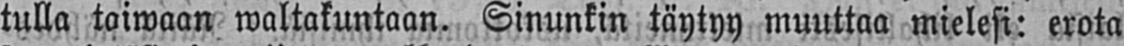tulla taiwaan waltakuntaan. Sinunkin täytyy muuttaa mielesi: erota
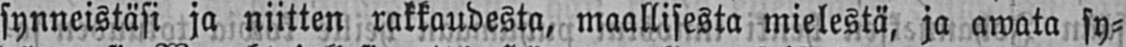synneistäsi ja niitten rakkaudesta, maallisesta mielestä, ja awata sy-
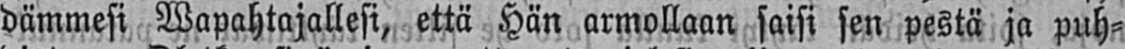dämmesi Wapahtajallesi, että Hän armollaan saisi sen pestä ja puh-
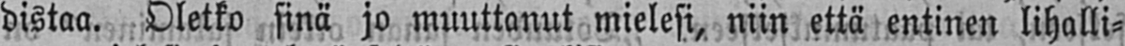distaa. Oletko sinä jo muuttanut mielesi, niin että entinen lihalli-
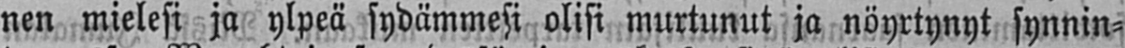nen mielesi ja ylpeä sydämmesi olisi murtunut ja nöyrtynyt synnin-
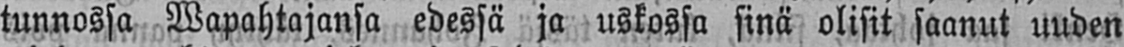tunnossa Wapahtajansa edessä ja uskossa sinä olisit saanut uuden
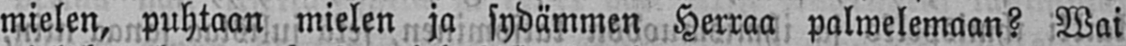mielen, puhtaan mielen ja sydämmen Herraa palwelemaan? Wai
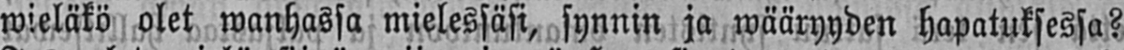weläkö olet wanhassa mielessäsi, synnin ja wääryyden hapatuksessa?
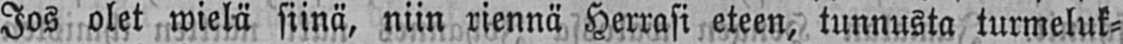Jos olet wielä siinä, niin riennä Herrasi eteen, tunnusta turmeluk-
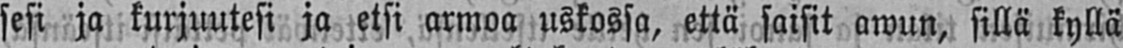sesi ja kurjuutesi ja etsi armoa uskossa, että saisit awun, sillä kyllä
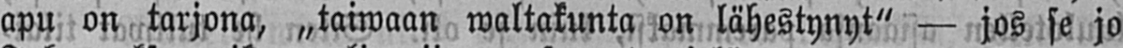apu on tarjona, „taiwaan waltakunta on lähestynyt" — jos se jo
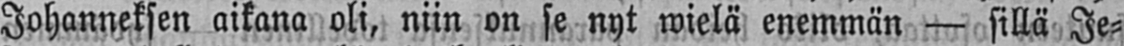Johanneksen aikana oli, niin on se nyt wielä enemmän — sillä Je-
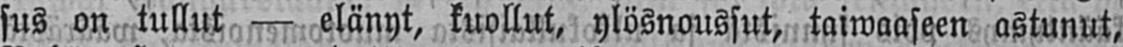sus on tullut — elänyt, kuollut, ylösnoussut, taiwaaseen astunut,
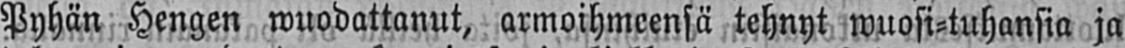Pyhän Hengen wuodattanut, armoihmeensä tehnyt wuosi-tuhansia ja
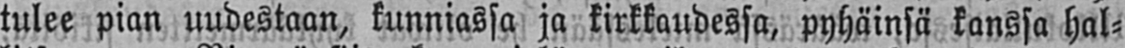tulee pian uudestaan, kunniassa ja kirkkaudessa, pyhäinsä kanssa hal-
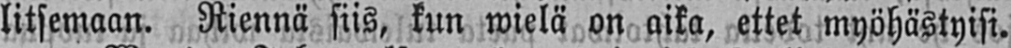litsemaan. Riennä siis, kun wielä on aika, ettet myöhästyisi.
